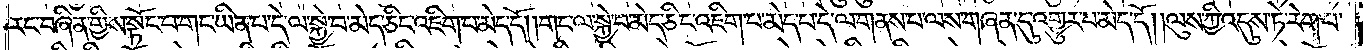རང་བཞིན་གྱིས་སྟོང་པ་གང་ཡིན་པ་དེ་ལ་སྐྱེ་བ་མེད་ཅིང་འཇིག་པ་མེད་དོ། །གང་ལ་སྐྱེ་བ་མེད་ཅིང་འཇིག་པ་མེད་པ་དེ་ལ་གནས་པ་ལས་གཞན་དུ་འགྱུར་བ་མེད་དོ། །ལུས་ཀྱི་འདུས་ཏེ་རེག་པ་
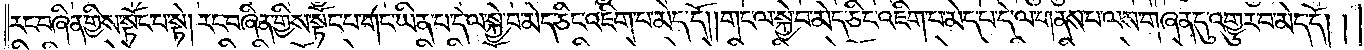རང་བཞིན་གྱིས་སྟོང་པ་སྟེ། རང་བཞིན་གྱིས་སྟོང་པ་གང་ཡིན་པ་དེ་ལ་སྐྱེ་བ་མེད་ཅིང་འཇིག་པ་མེད་དོ། །གང་ལ་སྐྱེ་བ་མེད་ཅིང་འཇིག་པ་མེད་པ་དེ་ལ་གནས་པ་ལས་གཞན་དུ་འགྱུར་བ་མེད་དོ། །
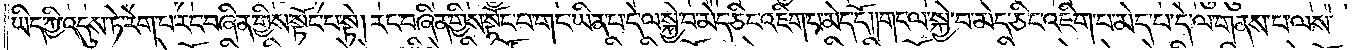ཡིད་ཀྱི་འདུས་ཏེ་རེག་པ་རང་བཞིན་གྱིས་སྟོང་པ་སྟེ། རང་བཞིན་གྱིས་སྟོང་པ་གང་ཡིན་པ་དེ་ལ་སྐྱེ་བ་མེད་ཅིང་འཇིག་པ་མེད་དོ། །གང་ལ་སྐྱེ་བ་མེད་ཅིང་འཇིག་པ་མེད་པ་དེ་ལ་གནས་པ་ལས་
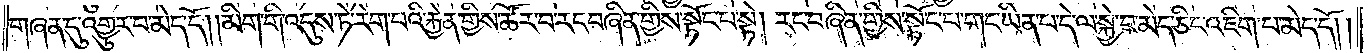གཞན་དུ་འགྱུར་བ་མེད་དོ། །མིག་གི་འདུས་ཏེ་རེག་པའི་རྐྱེན་གྱིས་ཚོར་བ་རང་བཞིན་གྱིས་སྟོང་པ་སྟེ། རང་བཞིན་གྱིས་སྟོང་པ་གང་ཡིན་པ་དེ་ལ་སྐྱེ་བ་མེད་ཅིང་འཇིག་པ་མེད་དོ། །
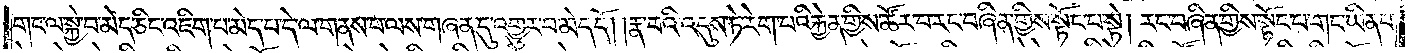གང་ལ་སྐྱེ་བ་མེད་ཅིང་འཇིག་པ་མེད་པ་དེ་ལ་གནས་པ་ལས་གཞན་དུ་འགྱུར་བ་མེད་དོ། །རྣ་བའི་འདུས་ཏེ་རེག་པའི་རྐྱེན་གྱིས་ཚོར་བ་རང་བཞིན་གྱིས་སྟོང་པ་སྟེ། རང་བཞིན་གྱིས་སྟོང་པ་གང་ཡིན་པ་
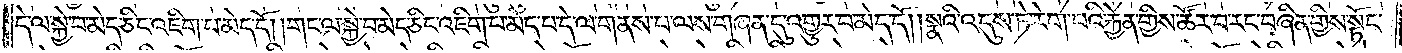དེ་ལ་སྐྱེ་བ་མེད་ཅིང་འཇིག་པ་མེད་དོ། །གང་ལ་སྐྱེ་བ་མེད་ཅིང་འཇིག་པ་མེད་པ་དེ་ལ་གནས་པ་ལས་གཞན་དུ་འགྱུར་བ་མེད་དོ། །སྣའི་འདུས་ཏེ་རེག་པའི་རྐྱེན་གྱིས་ཚོར་བ་རང་བཞིན་གྱིས་སྟོང་
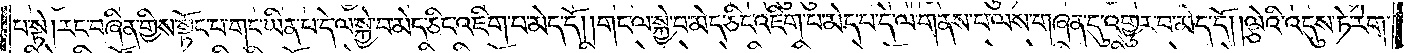པ་སྟེ། རང་བཞིན་གྱིས་སྟོང་པ་གང་ཡིན་པ་དེ་ལ་སྐྱེ་བ་མེད་ཅིང་འཇིག་པ་མེད་དོ། །གང་ལ་སྐྱེ་བ་མེད་ཅིང་འཇིག་པ་མེད་པ་དེ་ལ་གནས་པ་ལས་གཞན་དུ་འགྱུར་བ་མེད་དོ། །ལྕེའི་འདུས་ཏེ་རེག་
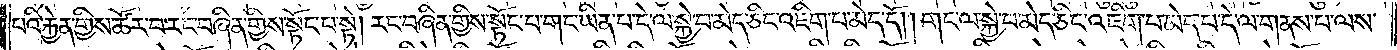པའི་རྐྱེན་གྱིས་ཚོར་བ་རང་བཞིན་གྱིས་སྟོང་པ་སྟེ། རང་བཞིན་གྱིས་སྟོང་པ་གང་ཡིན་པ་དེ་ལ་སྐྱེ་བ་མེད་ཅིང་འཇིག་པ་མེད་དོ། །གང་ལ་སྐྱེ་བ་མེད་ཅིང་འཇིག་པ་མེད་པ་དེ་ལ་གནས་པ་ལས་
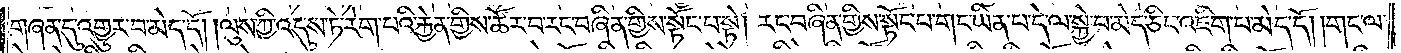གཞན་དུ་འགྱུར་བ་མེད་དོ། །ལུས་ཀྱི་འདུས་ཏེ་རེག་པའི་རྐྱེན་གྱིས་ཚོར་བ་རང་བཞིན་གྱིས་སྟོང་པ་སྟེ། རང་བཞིན་གྱིས་སྟོང་པ་གང་ཡིན་པ་དེ་ལ་སྐྱེ་བ་མེད་ཅིང་འཇིག་པ་མེད་དོ། །གང་ལ་
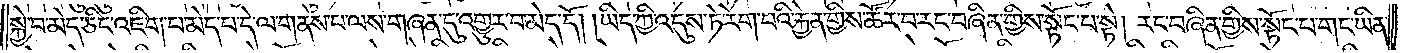སྐྱེ་བ་མེད་ཅིང་འཇིག་པ་མེད་པ་དེ་ལ་གནས་པ་ལས་གཞན་དུ་འགྱུར་བ་མེད་དོ། །ཡིད་ཀྱི་འདུས་ཏེ་རེག་པའི་རྐྱེན་གྱིས་ཚོར་བ་རང་བཞིན་གྱིས་སྟོང་པ་སྟེ། རང་བཞིན་གྱིས་སྟོང་པ་གང་ཡིན་
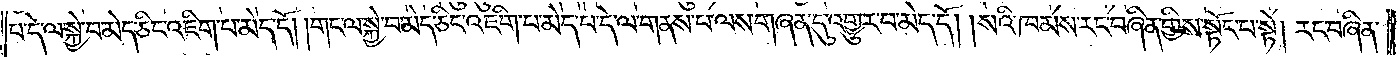པ་དེ་ལ་སྐྱེ་བ་མེད་ཅིང་འཇིག་པ་མེད་དོ། །གང་ལ་སྐྱེ་བ་མེད་ཅིང་འཇིག་པ་མེད་པ་དེ་ལ་གནས་པ་ལས་གཞན་དུ་འགྱུར་བ་མེད་དོ། །སའི་ཁམས་རང་བཞིན་གྱིས་སྟོང་པ་སྟེ། རང་བཞིན་
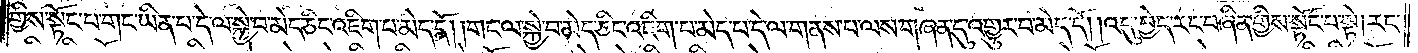གྱིས་སྟོང་པ་གང་ཡིན་པ་དེ་ལ་སྐྱེ་བ་མེད་ཅིང་འཇིག་པ་དོ། །གང་ལ་སྐྱེ་བ་མེད་ཅིང་འཇིག་པ་མེད་པ་དེ་ལ་གནས་པ་ལས་གཞན་དུ་འགྱུར་བ་མེད་དོ། །འདུ་བྱེད་རང་བཞིན་གྱིས་སྟོང་པ་སྟེ། རང་
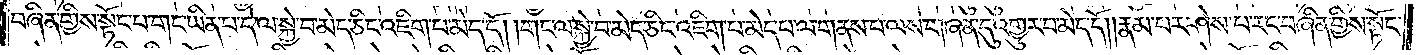བཞིན་གྱིས་སྟོང་པ་གང་ཡིན་པ་དེ་ལ་སྐྱེ་བ་མེད་ཅིང་འཇིག་པ་མེད་དོ། །གང་ལ་སྐྱེ་བ་མེད་ཅིང་འཇིག་པ་མེད་པ་དེ་ལ་གནས་པ་ལས་གཞན་དུ་འགྱུར་བ་མེད་དོ། །རྣམ་པར་ཤེས་པ་རང་བཞིན་གྱིས་སྟོང་
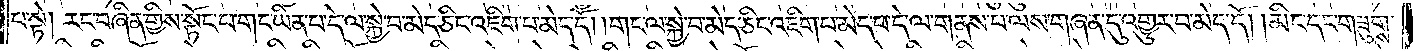པ་སྟེ། རང་བཞིན་གྱིས་སྟོང་པ་གང་ཡིན་པ་དེ་ལ་སྐྱེ་བ་མེད་ཅིང་འཇིག་པ་མེད་དོ། །གང་ལ་སྐྱེ་བ་མེད་ཅིང་འཇིག་པ་མེད་པ་དེ་ལ་གནས་པ་ལས་གཞན་དུ་འགྱུར་བ་མེད་དོ། །མིང་དང་གཟུགས་
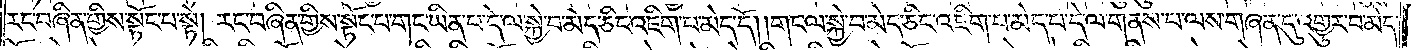རང་བཞིན་གྱིས་སྟོང་པ་སྟེ། རང་བཞིན་གྱིས་སྟོང་པ་གང་ཡིན་པ་དེ་ལ་སྐྱེ་བ་མེད་ཅིང་འཇིག་པ་མེད་དོ། །གང་ལ་སྐྱེ་བ་མེད་ཅིང་འཇིག་པ་མེད་པ་དེ་ལ་གནས་པ་ལས་གཞན་དུ་འགྱུར་བ་མེད་
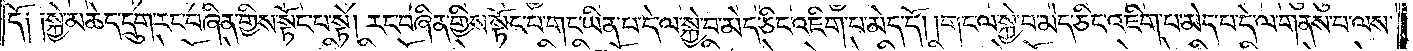དོ༑ ༑སྐྱེ་མཆེད་དྲུག་རང་བཞིན་གྱིས་སྟོང་པ་སྟེ། རང་བཞིན་གྱིས་སྟོང་པ་གང་ཡིན་པ་དེ་ལ་སྐྱེ་བ་མེད་ཅིང་འཇིག་པ་མེད་དོ། །གང་ལ་སྐྱེ་བ་མེད་ཅིང་འཇིག་པ་མེད་པ་དེ་ལ་གནས་པ་ལས་
